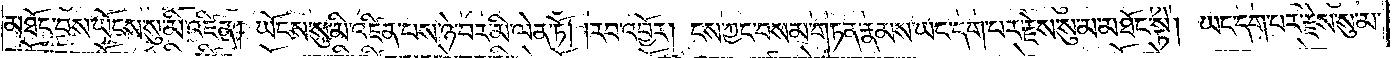མཐོང་བས་ཡོངས་སུ་མི་འཛིན། ཡོངས་སུ་མི་འཛིན་པས་ཉེ་བར་མི་ལེན་ཏོ། །རབ་འབྱོར། ངས་ཀྱང་བསམ་གཏན་རྣམས་ཡང་དག་པར་རྗེས་སུ་མ་མཐོང་སྟེ། ཡང་དག་པར་རྗེས་སུ་མ་
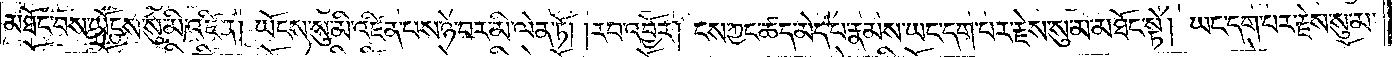མཐོང་བས་ཡོངས་སུ་མི་འཛིན། ཡོངས་སུ་མི་འཛིན་པས་ཉེ་བར་མི་ལེན་ཏོ། །རབ་འབྱོར། ངས་ཀྱང་ཚད་མེད་པ་རྣམས་ཡང་དག་པར་རྗེས་སུ་མ་མཐོང་སྟེ། ཡང་དག་པར་རྗེས་སུ་མ་
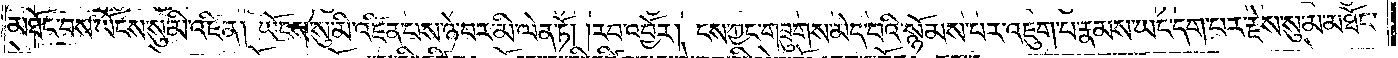མཐོང་བས་ཡོངས་སུ་མི་འཛིན། ཡོངས་སུ་མི་འཛིན་པས་ཉེ་བར་མི་ལེན་ཏོ། །རབ་འབྱོར། ངས་ཀྱང་གཟུགས་མེད་པའི་སྙོམས་པར་འཇུག་པ་རྣམས་ཡང་དག་པར་རྗེས་སུ་མ་མཐོང་
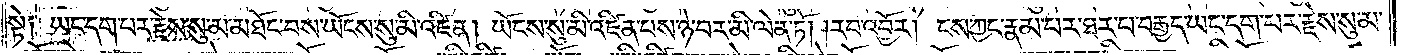སྟེ༑ ཡང་དག་པར་རྗེས་སུ་མ་མཐོང་བས་ཡོངས་སུ་མི་འཛིན། ཡོངས་སུ་མི་འཛིན་པས་ཉེ་བར་མི་ལེན་ཏོ། །རབ་འབྱོར། ངས་ཀྱང་རྣམ་པར་ཐར་པ་བརྒྱད་ཡང་དག་པར་རྗེས་སུ་མ་
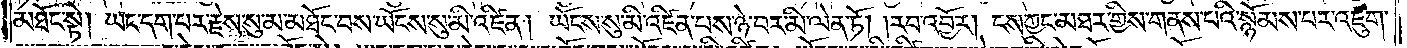མཐོང་སྟེ། ཡང་དག་པར་རྗེས་སུ་མ་མཐོང་བས་ཡོངས་སུ་མི་འཛིན། ཡོངས་སུ་མི་འཛིན་པས་ཉེ་བར་མི་ལེན་ཏོ། །རབ་འབྱོར། ངས་ཀྱང་མཐར་གྱིས་གནས་པའི་སྙོམས་པར་འཇུག་
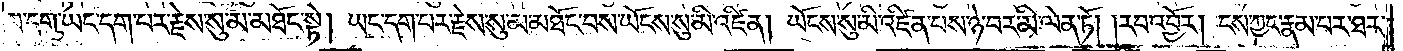པ་དགུ་ཡང་དག་པར་རྗེས་སུ་མ་མཐོང་སྟེ། ཡང་དག་པར་རྗེས་སུ་མ་མཐོང་བས་ཡོངས་སུ་མི་འཛིན། ཡོངས་སུ་མི་འཛིན་པས་ཉེ་བར་མི་ལེན་ཏོ། །རབ་འབྱོར། ངས་ཀྱང་རྣམ་པར་ཐར་
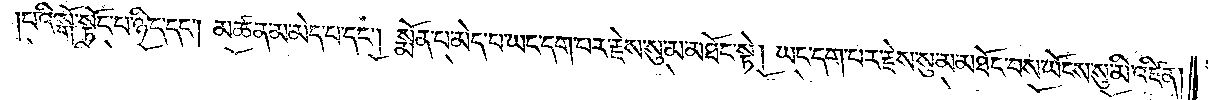པའི་སྒོ་སྟོང་པ་ཉིད་དང༌། མཚན་མ་མེད་པ་དང༌། སྨོན་པ་མེད་པ་ཡང་དག་པར་རྗེས་སུ་མ་མཐོང་སྟེ། ཡང་དག་པར་རྗེས་སུ་མ་མཐོང་བས་ཡོངས་སུ་མི་འཛིན།
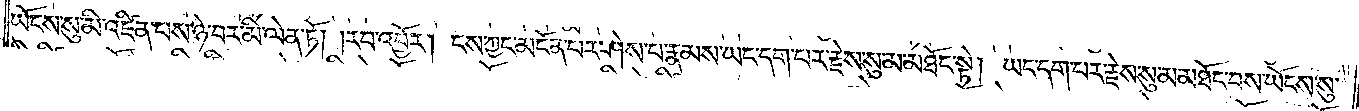ཡོངས་སུ་མི་འཛིན་པས་ཉེ་བར་མི་ལེན་ཏོ། །རབ་འབྱོར། ངས་ཀྱང་མངོན་པར་ཤེས་པ་རྣམས་ཡང་དག་པར་རྗེས་སུ་མ་མཐོང་སྟེ།ཡང་དག་པར་རྗེས་སུ་མ་མཐོང་བས་ཡོངས་སུ་
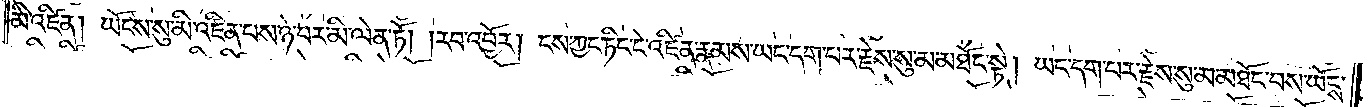མི་འཛིན། ཡོངས་སུ་མི་འཛིན་པས་ཉེ་བར་མི་ལེན་ཏོ། །རབ་འབྱོར། ངས་ཀྱང་ཏིང་ངེ་འཛིན་རྣམས་ཡང་དག་པར་རྗེས་སུ་མ་མཐོང་སྟེ། ཡང་དག་པར་རྗེས་སུ་མ་མཐོང་བས་ཡོངས་
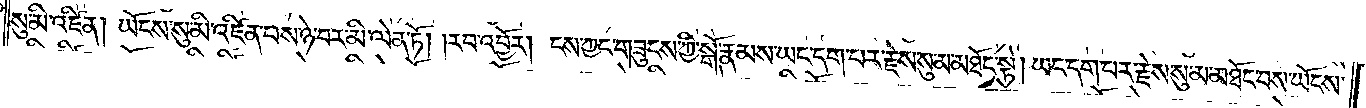སུ་མི་འཛིན། ཡོངས་སུ་མི་འཛིན་པས་ཉེ་བར་མི་ལེན་ཏོ། །རབ་འབྱོར། ངས་ཀྱང་གཟུངས་ཀྱི་སྒོ་རྣམས་ཡང་དག་པར་རྗེས་སུ་མ་མཐོང་སྟེ། ཡང་དག་པར་རྗེས་སུ་མ་མཐོང་བས་ཡོངས་
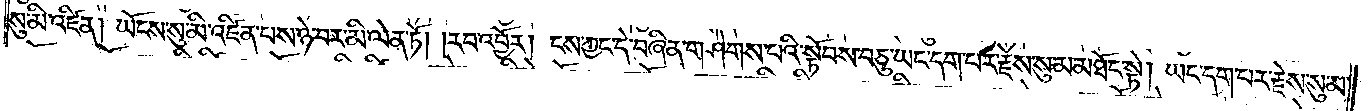སུ་མི་འཛིན། ཡོངས་སུ་མི་འཛིན་པས་ཉེ་བར་མི་ལེན་ཏོ། །རབ་འབྱོར། ངས་ཀྱང་དེ་བཞིན་གཤེགས་པའི་སྟོབས་བཅུ་ཡང་དག་པར་རྗེས་སུ་མ་མཐོང་སྟེ། ཡང་དག་པར་རྗེས་སུ་མ་
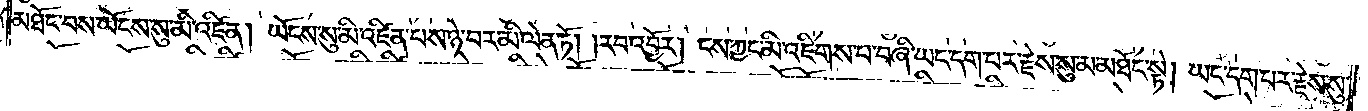མཐོང་བས་ཡོངས་སུ་མི་འཛིན། ཡོངས་སུ་མི་འཛིན་པས་ཉེ་བར་མི་ལེན་ཏོ། །རབ་འབྱོར། ངས་ཀྱང་མི་འཇིགས་པ་བཞི་ཡང་དག་པར་རྗེས་སུ་མ་མཐོང་སྟེ། ཡང་དག་པར་རྗེས་སུ་
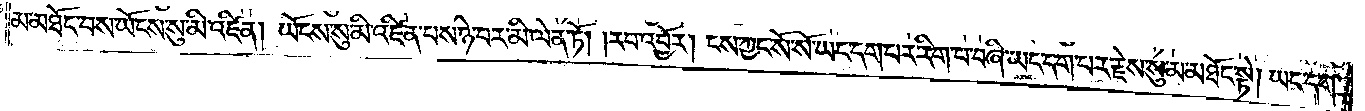མ་མཐོང་བས་ཡོངས་སུ་མི་འཛིན། ཡོངས་སུ་མི་འཛིན་པས་ཉེ་བར་མི་ལེན་ཏོ། །རབ་འབྱོར། ངས་ཀྱང་སོ་སོ་ཡང་དག་པར་རིག་པ་བཞི་ཡང་དག་པར་རྗེས་སུ་མ་མཐོང་སྟེ། ཡང་དག་
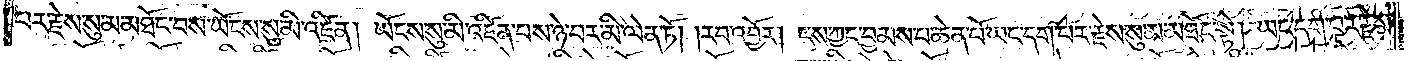པར་རྗེས་སུ་མ་མཐོང་བས་ཡོངས་སུ་མི་འཛིན། ཡོངས་སུ་མི་འཛིན་པས་ཉེ་བར་མི་ལེན་ཏོ། །རབ་འབྱོར། ངས་ཀྱང་བྱམས་པ་ཆེན་པོ་ཡང་དག་པར་རྗེས་སུ་མ་མཐོང་སྟེ། ཡང་དག་པར་རྗེས་
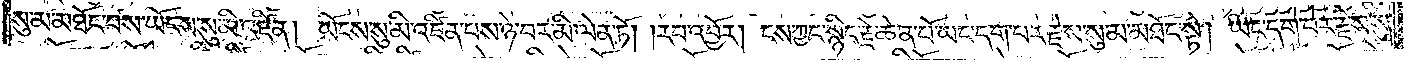སུ་མ་མཐོང་བས་ཡོངས་སུ་མི་འཛིན། ཡོངས་སུ་མི་འཛིན་པས་ཉེ་བར་མི་ལེན་ཏོ། །རབ་འབྱོར། ངས་ཀྱང་སྙིང་རྗེ་ཆེན་པོ་ཡང་དག་པར་རྗེས་སུ་མ་མཐོང་སྟེ། ཡང་དག་པར་རྗེས་སུ་
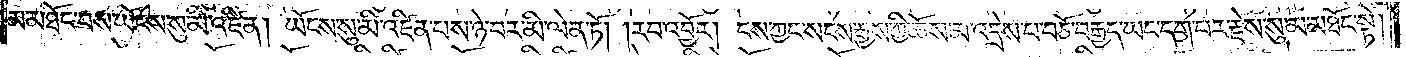མ་མཐོང་བས་ཡོངས་སུ་མི་འཛིན། ཡོངས་སུ་མི་འཛིན་པས་ཉེ་བར་མི་ལེན་ཏོ། །རབ་འབྱོར། ངས་ཀྱང་སངས་རྒྱས་ཀྱི་ཆོས་མ་འདྲེས་པ་བཅོ་བརྒྱད་ཡང་དག་པར་རྗེས་སུ་མཐོང་སྟེ།
